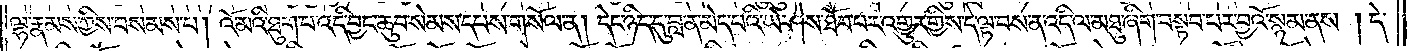ལྷ་རྣམས་ཀྱིས་བསམས་པ། འོ་མའི་ཐུག་པ་འདི་བྱང་ཆུབ་སེམས་དཔས་གསོལ་ན། དེང་ཉིད་དུ་བླ་ན་མེད་པའི་ཡེ་ཤེས་ཐོབ་པར་འགྱུར་གྱི་ས་དེ་ལྟ་བས་ན་འདི་ལ་མཐུ་ཞིག་བསྟབ་པར་བྱའོ་སྙམ་ནས་།དེ་
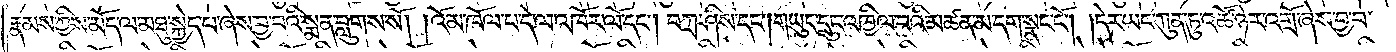རྣམས་ཀྱིས་མོད་ལ་མཐུ་སྐྱེད་པ་ཞེས་བྱ་བའི་སྨན་བླུགས་སོ། །འོ་མ་ཁོལ་པ་དེ་ལ་འཁོར་ལོ་དང༌། བཀྲ་ཤིས་དང༌། གཡུང་དྲུང་འཁྱིལ་བའི་མཚན་མ་དག་སྣང་ངོ༌། །དེར་ཡང་ཀུན་ཏུ་འཚོ་ཉེར་འགྲོ་ཞེས་བྱ་བ་
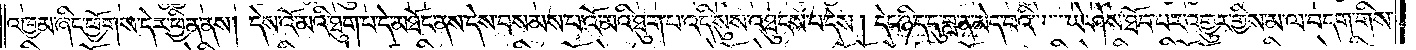འཁྱམ་ཞིང་ཕྱོགས་དེར་ཕྱིན་ནས། དེས་འོ་མའི་ཐུག་པ་དེ་མཐོང་ནས་དེས་བསམས་པ་འོ་མའི་ཐུག་པ་འདི་སུས་འཐུངས་པ་དེས། དེང་ཉིད་དུ་བླ་ན་མེད་པའི་ཡེ་ཤེས་ཐོབ་པར་འགྱུར་གྱི་མ་ལ་བདག་གིས་
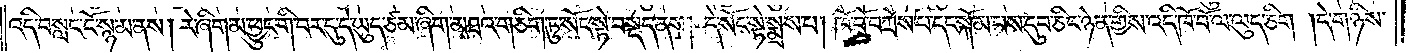འདི་བསླང་ངོ་སྙམ་ནས། རེ་ཞིག་མ་ཕྱུང་གི་བར་དུ་དེ་ཡུད་ཙམ་ཞིག་མཐའ་གཅིག་ཏུ་སོང་སྟེ་བསྡད་ནས། དེ་སོང་སྟེ་སྨྲས་པ། ཁོ་བོ་བཀྲེས་པ་དང་སྐོམ་པས་དུབ་ཅིང་ཉེན་གྱིས་འདི་ཁོ་བོ་ལ་ལུད་ཅིག །དེ་གཉིས་
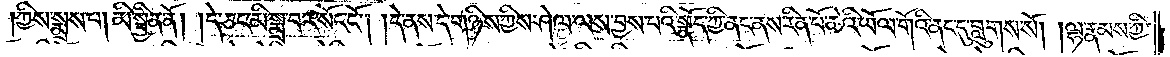ཀྱིས་སྨྲས་པ། མི་སྦྱིན་ནོ། །དེ་ཅང་མི་སྨྲ་བར་སོང་ངོ༌། །དེ་ནས་དེ་གཉིས་ཀྱིས་ཤེལ་ལས་བྱས་པའི་སྣོད་ཀྱི་ནང་ནས་རིན་པོ་ཆེའི་ཡོལ་གོའི་ནང་དུ་བླུགས་སོ། །ལྷ་རྣམས་ཀྱི་
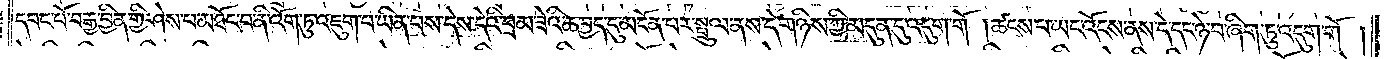དབང་པོ་བརྒྱ་བྱིན་གྱི་ཤེས་པ་མཐོང་བ་ནི་འོག་ཏུ་འཇུག་པ་ཡིན་པས་དེས་དེའི་བྲམ་ཟེའི་ཆ་བྱད་དུ་མངོན་པར་སྤྲུལ་ནས་དེ་གཉིས་ཀྱི་མདུན་དུ་འདུག་གོ །ཚངས་པ་ཡང་འོངས་ནས་དེ་དང་ཉེ་བ་ཞིག་ཏུ་འདུག་གོ་
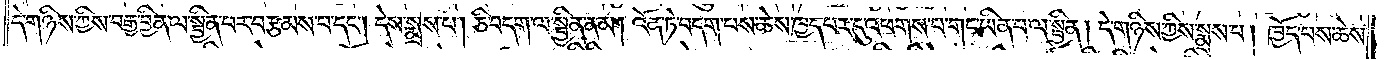དེ་གཉིས་ཀྱིས་བརྒྱ་བྱིན་ལ་སྦྱིན་པར་བརྩམས་པ་དང༌། དེས་སྨྲས་པ། ཅི་བདག་ལ་སྦྱིན་ནམ། འོན་ཏེ་བདག་པས་ཆེས་ཁྱད་པར་དུ་འཕགས་པ་གང་ཡིན་པ་ལ་སྦྱིན། དེ་གཉིས་ཀྱིས་སྨྲས་པ། ཁྱོད་པས་ཆེས་
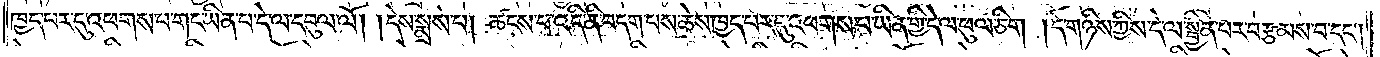ཁྱད་པར་དུ་འཕགས་པ་གང་ཡིན་པ་དེ་ལ་དབུལ་ལོ། །དེས་སྨྲས་པ། ཚངས་པ་འདི་ནི་བདག་པས་ཆེས་ཁྱད་པར་དུ་འཕགས་པ་ཡིན་གྱི་དེ་ལ་ཕུལ་ཅིག །དེ་གཉིས་ཀྱིས་དེ་ལ་སྦྱིན་པར་བརྩམས་པ་དང༌།
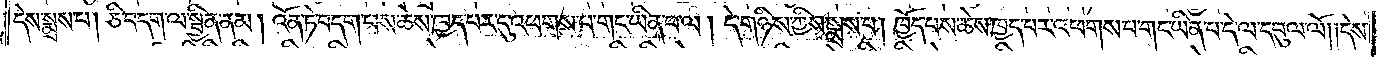དེས་སྨྲས་པ། ཅི་བདག་ལ་སྦྱིན་ནམ། འོན་ཏེ་བདག་པས་ཆེས་ཁྱད་པར་དུ་འཕགས་པ་གང་ཡིན་པ་ལ། དེ་གཉིས་ཀྱིས་སྨྲས་པ། ཁྱོད་པས་ཆེས་ཁྱེད་པར་དུ་འཕགས་པ་གང་ཡིན་པ་དེ་ལ་དབུལ་ལོ། །དེས་
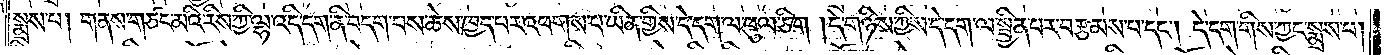སྨྲས་པ། གནས་གཙང་མའི་རིས་ཀྱི་ལྷ་འདི་དག་ནི་བདག་པས་ཆེས་ཁྱད་པར་དུ་འཕགས་པ་ཡིན་གྱིས་དེ་དག་ལ་ཕུལ་ཅིག །དེ་གཉིས་ཀྱིས་དེ་དག་ལ་སྦྱིན་པར་བརྩམས་པ་དང༌། དེ་དག་གིས་ཀྱང་སྨྲས་པ།
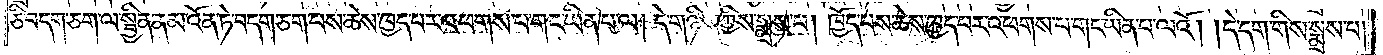ཅི་བདག་ཅག་ལ་སྦྱིན་ནམ་འོན་ཏེ་བདག་ཅག་པས་ཆེས་ཁྱད་པར་འཕགས་པ་གང་ཡིན་པ་ལ། དེ་གཉིས་ཀྱིས་སྨྲས་པ། ཁྱོད་པས་ཆེས་ཁྱད་པར་འཕགས་པ་གང་ཡིན་པ་ལའོ། །དེ་དག་གིས་སྨྲས་པ་
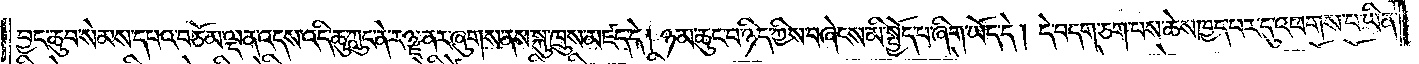བྱང་ཆུབ་སེམས་དཔའ་བཅོམ་ལྡན་འདས་འདི་ཆུ་ཀླུང་ནེ་རཉྫ་ནར་ཞུགས་ནས་སྐུ་ཁྲུས་མཛད་དེ། ཉམ་ཆུང་བ་ཉིད་ཀྱིས་བཞེངས་མི་སྤྱོད་པ་ཞིག་ཡོད་དེ། དེ་བདག་ཅག་པས་ཆེས་ཁྱད་པར་དུ་འཕགས་པ་ཡིན་
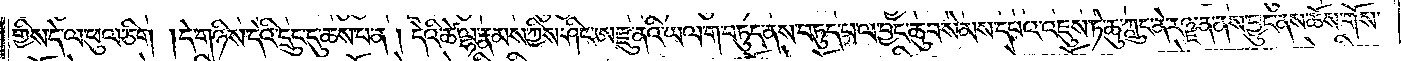གྱིས་དེ་ལ་ཕུལ་ཅིག །དེ་གཉིས་དེའི་དྲུང་དུ་ཆས་པ་ན། དེའི་ཚེ་ལྷ་རྣམས་ཀྱིས་ཤིང་ཨརྫུ་ནའི་ཡལ་ག་བཏུད་ནས་བཏུད་པ་ལ་བྱང་ཆུབ་སེམས་དཔའ་འཇུས་ཏེ་ཆུ་ཀླུང་ནི་རཉྫ་ན་ནས་བྱུང་ནས་ཆོས་གོས་
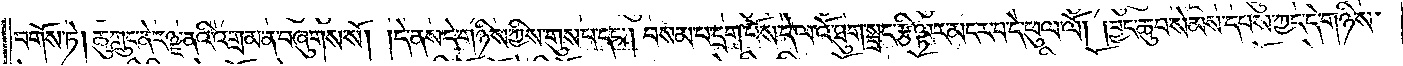བགོས་ཏེ། ཆུ་ཀླུང་ནེ་རཉྫ་ནའི་འགྲམ་ན་བཞུགས་སོ། །དེ་ནས་དེ་གཉིས་ཀྱིས་གུས་པ་དང༌། བསམ་པ་དྲག་པོས་དེ་ལ་འོ་ཐུག་སྦྲང་རྩི་ལྟར་མངར་བ་དེ་ཕུལ་ལོ། །བྱང་ཆུབ་སེམས་དཔས་ཀྱང་དེ་གཉིས་
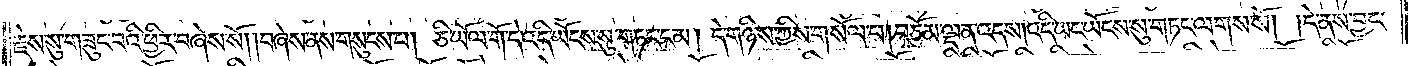རྗེས་སུ་གཟུང་བའི་ཕྱིར་བཞེས་སོ། །བཞེས་ནས་གསུངས་པ། ཅི་ཡོལ་གོ་དེ་འདི་ཡོངས་སུ་གཏང་ངམ། དེ་གཉིས་ཀྱིས་གསོལ་བ། བཅོམ་ལྡན་འདས། འདི་ཡང་ཡོངས་སུ་གཏང་ལགས་སོ། །དེ་ནས་བྱང་
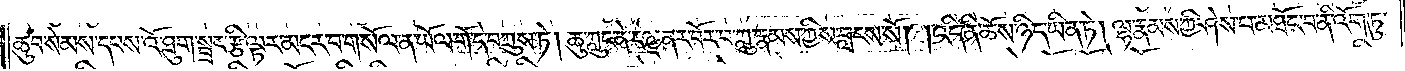ཆུབ་སེམས་དཔས་འོ་ཐུག་སྦྲང་རྩི་ལྟར་མངར་བ་གསོལ་ན་ཡོལ་གོ་དེ་བཀྲུས་ཏེ། ཆུ་ཀླུང་ནེ་རཉྫ་ནར་བོར་བ་ཀླུ་རྣམས་ཀྱིས་བླངས་སོ། །འདི་ནི་ཆོས་ཉིད་ཡིན་ཏེ། ལྷ་རྣམས་ཀྱི་ཤེས་པ་མཐོང་བ་ནི་འོག་ཏུ་
